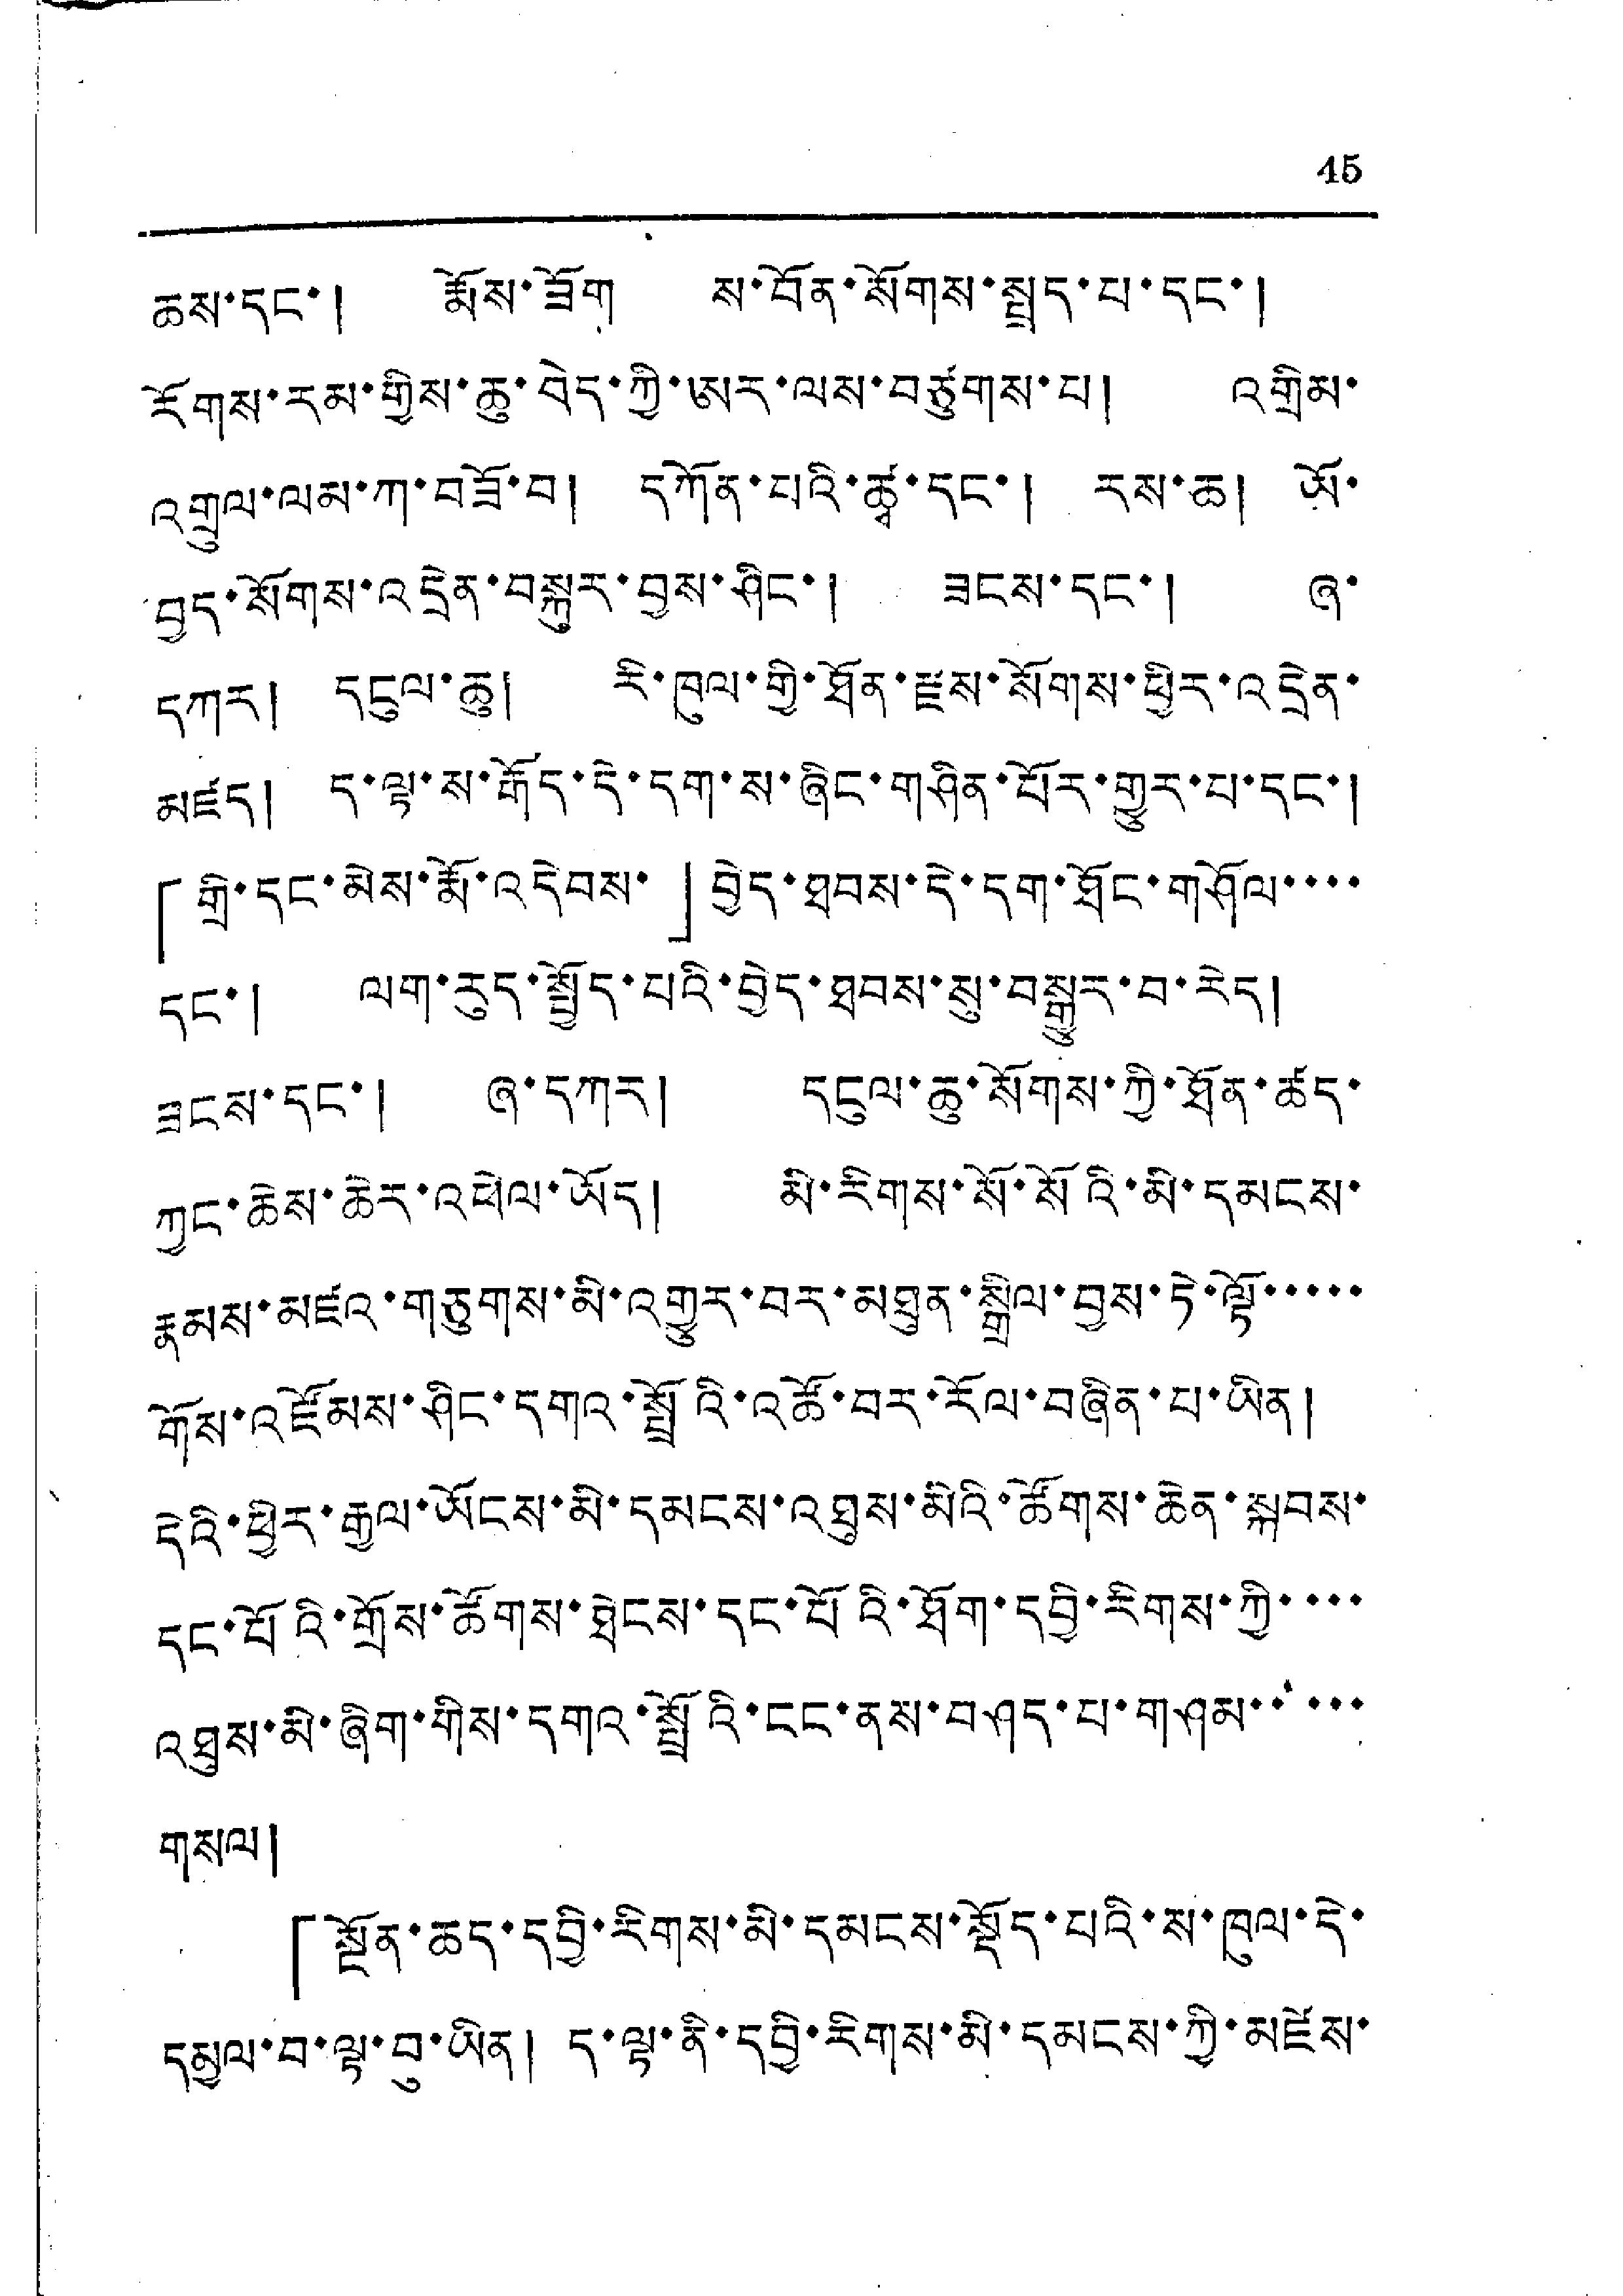45
ཆས་དང་། རྨོས་ཟོག ས་བོན་སོགས་སྤྲད་པ་དང་།
རོགས་རམ་གྱིས་ཆུ་བེད་ཀྱི་ཨར་ལས་བཙུགས་པ། འགྲིམ་
འགྲུལ་ལམ་ཀ་བཟོ་བ། དཀོན་པའི་ཚྭ་དང་། རས་ཆ། ཡོ་
བྱད་སོགས་འདྲེན་བསྐུར་བྱས་ཤིང་། ཟངས་དང་། ཞ་
དཀར། དངུལ་ཆུ། རི་ཁུལ་གྱི་ཐོན་རྫས་སོགས་ཕྱིར་འདྲེན་
མཛད། ད་ལྟ་ས་རྒོད་དེ་དག་ས་ཞིང་གཤིན་པོར་གྱུར་པ་དང་།
「གྲི་དང་མེས་རྨོ་འདེབས་」བྱེད་ཐབས་དེ་དག་ཐོང་གཤོལ་་་་
དང་། ལག་རུད་སྤྱོད་པའི་བྱེད་ཐབས་སུ་བསྒྱུར་བ་རེད།
ཟངས་དང་། ཞ་དཀར། དངུལ་ཆུ་སོགས་ཀྱི་ཐོན་ཚད་་
ཀྱང་ཆེས་ཆེར་འཕེལ་ཡོད། མི་རིགས་སོ་སོའི་མི་དམངས་
རྣམས་མཛའ་གཅུགས་མི་འགྱུར་བར་མཐུན་སྒྲིལ་བྱས་ཏེ་ལྟོ་་་་་་
གོས་འཛོམས་ཤིང་དགའ་སྤྲོའི་འཚོ་བར་རོལ་བཞིན་པ་ཡིན།
དེའི་ཕྱིར་རྒྱལ་ཡོངས་མི་དམངས་འཐུས་མིའི་ཚོགས་ཆེན་སྐབས་
དང་པོའི་གྲོས་ཚོགས་ཐེངས་དང་པོའི་ཐོག་དབྱི་རིགས་ཀྱི་་་་
འཐུས་མི་ཞིག་གིས་དགའ་སྤྲོའི་ངང་ནས་བཤད་པ་གཤམ་་་་་
གསལ།
「སྔོན་ཆད་དབྱི་རིགས་མི་དམངས་སྡོད་པའི་ས་ཁུལ་དེ་
དམྱལ་བ་ལྟ་བུ་ཡིན། ད་ལྟ་ནི་དབྱི་རིགས་མི་དམངས་ཀྱི་མཛེས་
